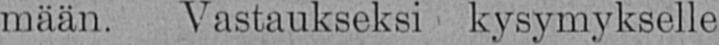mään. Vastaukseksi kysymykselle
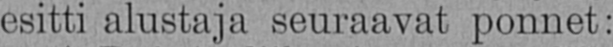esitti alustaja seuraavat ponnet:
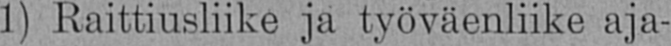1) Raittiusliike ja työväenliike aja-
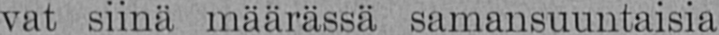vat siinä määrässä samansuuntaisia
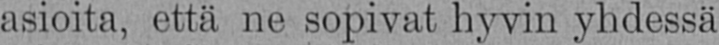asioita, että ne sopivat hyvin yhdessä
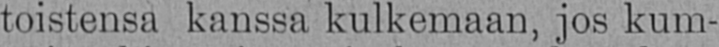toistensa kanssa kulkemaan, jos kum-
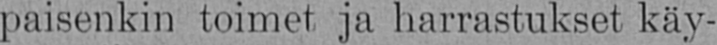paisenkin toimet ja harrastukset käy-
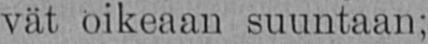vät oikeaan suuntaan;
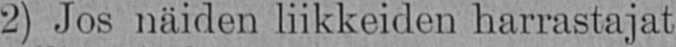2) Jos näiden liikkeiden harrastajat
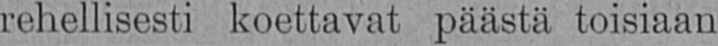rehellisesti koettavat päästä toisiaan
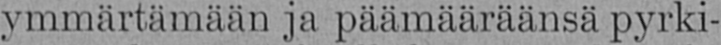ymmärtämään ja päämääräänsä pyrki-
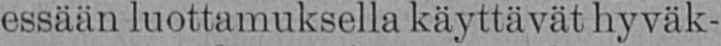essään luottamuksella käyttävät hyväk-
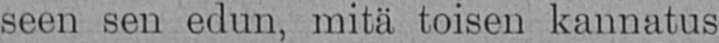seen sen edun, mitä toisen kannatus
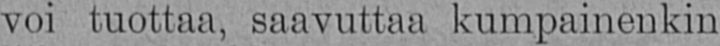voi tuottaa, saavuttaa kumpainenkin
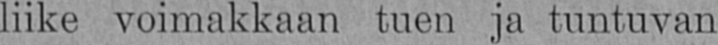liike voimakkaan tuen ja tuntuvan
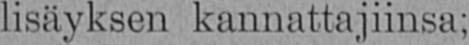lisäyksen kannattajiinsa;
